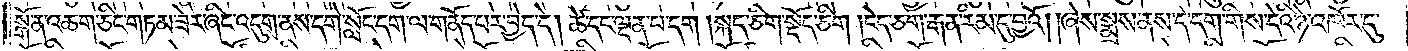སྒོ་ན་འཆག་ཅིང་གཏམ་ཟེར་ཞིང་འདུག་ནས་དགེ་སློང་དག་ལ་གནོད་པར་བྱེད་དེ། ཚེ་དང་ལྡན་པ་དག །སྐད་ཅིག་སྡོད་ཅིག །ངེད་ཅག་རྒན་རིམ་དུ་བྱའོ། །ཞེས་སྨྲས་ནས་དེ་དག་གིས་དེའི་ཉེ་འཁོར་དུ་
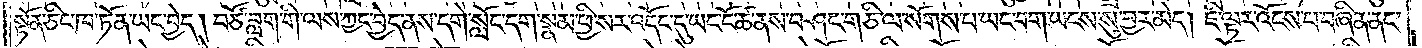སྟོན་ཅིང་ཁ་ཏོན་ཡང་བྱེད། བཙོ་བླག་གི་ལས་ཀྱང་བྱེད་ནས་དགེ་སློང་དག་སྣམ་ཕྱི་སར་འདོང་དུ་ཡང་ངོ་ཚ་ནས་བཤང་གཅི་ལ་སོགས་པ་ཡང་བག་ཡངས་སུ་བྱར་མེད། ཇི་ལྟར་འོངས་པ་བཞིན་ནང་
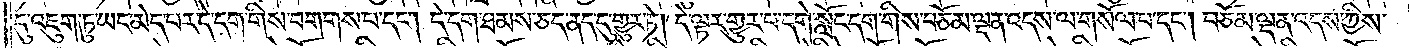དུ་འཇུག་ཏུ་ཡང་མེད་པར་དེ་དག་གིས་བགགས་པ་དང༌། དེ་དག་ཐམས་ཅད་ནད་དུ་གྱུར་ཏེ། དེ་ལྟར་གྱུར་པ་དགེ་སློང་དག་གིས་བཅོམ་ལྡན་འདས་ལ་གསོལ་པ་དང༌། བཅོམ་ལྡན་འདས་ཀྱིས་
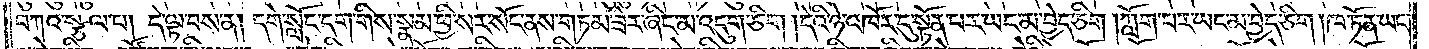བཀའ་སྩལ་པ། དེ་ལྟ་བས་ན། དགེ་སློང་དག་གིས་སྣམ་ཕྱི་སར་སོང་ནས་གཏམ་ཟེར་ཞིང་མ་འདུག་ཅིག །དེའི་ཉེ་འཁོར་དུ་སྟོན་པར་ཡང་མ་བྱེད་ཅིག །ཀློག་པར་ཡང་མ་བྱེད་ཅིག །ཁ་ཏོན་ཡང་
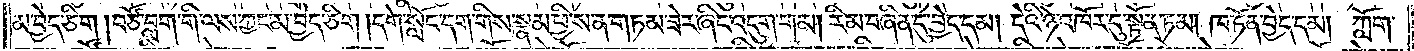མ་བྱེད་ཅིག །བཙོ་བླག་གི་ལས་ཀྱང་མ་བྱེད་ཅིག །དགེ་སློང་དག་གིས་སྣམ་ཕྱི་ས་ན་གཏམ་ཟེར་ཞིང་འདུག་གམ། རིམ་བཞིན་དུ་བྱེད་དམ། དེའི་ཉེ་འཁོར་དུ་སྟོན་ཏམ། ཁ་ཏོན་བྱེད་དམ། ཀློག་
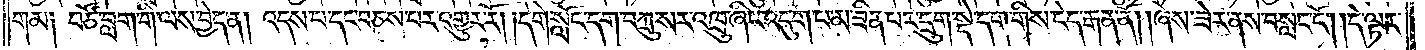གམ། བཙོ་བླག་གི་ལས་བྱེད་ན། འདས་པ་དང་བཅས་པར་འགྱུར་རོ། །དགེ་སློང་དག་བཀྲུ་སར་འཁྲུ་ཞིང་འདུག་པ་མ་ཟིན་པར་དྲུག་སྡེ་དག་གིས་ངེད་རྒན་ནོ། །ཞེས་ཟེར་ནས་བསླང་ངོ༌། །དེ་ལྟར་
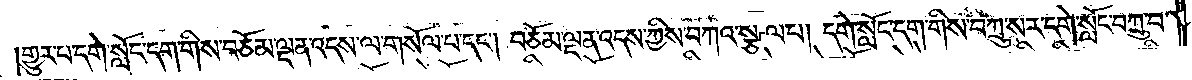གྱུར་པ་དགེ་སློང་དག་གིས་བཅོམ་ལྡན་འདས་ལ་གསོལ་པ་དང༌། བཅོམ་ལྡན་འདས་ཀྱིས་བཀའ་སྩལ་པ། དགེ་སློང་དག་གིས་བཀྲུ་སར་དགེ་སློང་བཀྲུ་བ་
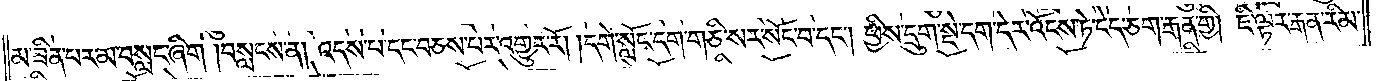མ་ཟིན་པར་མ་བསླང་ཞིག །བསླངས་ན། འདས་པ་དང་བཅས་པར་འགྱུར་རོ། །དགེ་སློང་དག་གཅི་སར་སོང་བ་དང༌། ཕྱིས་དྲུག་སྡེ་དག་དེར་འོངས་ཏེ་ངེད་ཅག་རྒན་གྱི། ཇི་ལྟར་རྒན་རིམ་
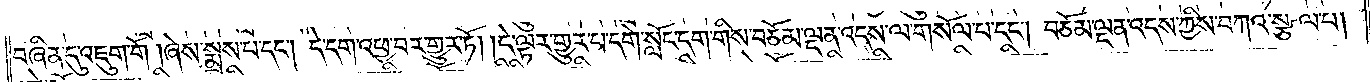བཞིན་དུ་འཇུག་གོ །ཞེས་སྨྲས་པ་དང༌། དེ་དག་འཕྱ་བར་གྱུར་ཏོ། །དེ་ལྟར་གྱུར་པ་དགེ་སློང་དག་གིས་བཅོམ་ལྡན་འདས་ལ་གསོལ་པ་དང༌། བཅོམ་ལྡན་འདས་ཀྱིས་བཀའ་སྩལ་པ།
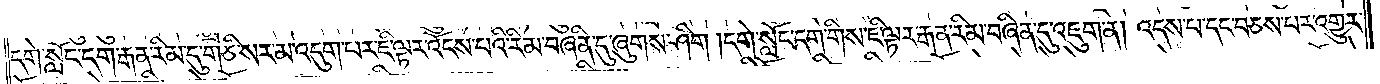དགེ་སློང་དག་རྒན་རིམ་དུ་གཅི་སར་མ་འདུག་པར་ཇི་ལྟར་འོངས་པའི་རིམ་བཞིན་དུ་ཞུགས་ཤིག །དགེ་སློང་དག་གིས་ཇི་ལྟར་རྒན་རིམ་བཞིན་དུ་འཇུག་ན། འདས་པ་དང་བཅས་པར་འགྱུར་
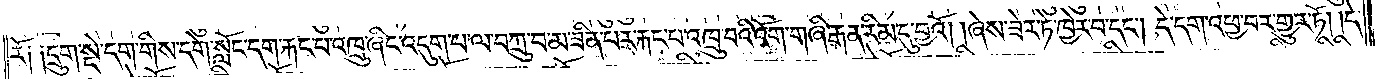རོ༑ ༑དྲུག་སྡེ་དག་གིས་དགེ་སློང་དག་རྐང་པ་འཁྲུ་ཞིང་འདུག་པ་ལ་བཀྲུ་བ་མ་ཟིན་པར་རྐང་པ་འཁྲུ་བའི་འོག་གཞི་རྒན་རིམ་དུ་བྱའོ། །ཞེས་ཟེར་ཏེ་ཁྱེར་བ་དང༌། དེ་དག་འཕྱ་བར་གྱུར་ཏོ། །དེ་
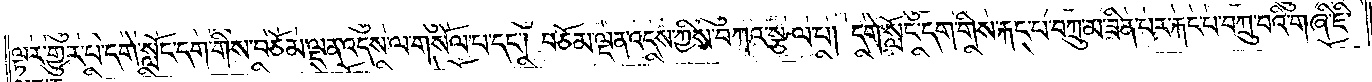ལྟར་གྱུར་པ་དགེ་སློང་དག་གིས་བཅོམ་ལྡན་འདས་ལ་གསོལ་པ་དང༌། བཅོམ་ལྡན་འདས་ཀྱིས་བཀའ་སྩལ་པ། དགེ་སློང་དག་གིས་རྐང་པ་བཀྲུ་མ་ཟིན་པར་རྐང་པ་བཀྲུ་བའི་གཞི་ཇི་
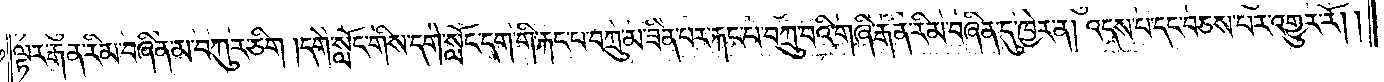ལྟར་རྒན་རིམ་བཞིན་མ་བཀུར་ཅིག །དགེ་སློང་གིས་དགེ་སློང་དག་གི་རྐང་པ་བཀྲུ་མ་ཟིན་པར་རྐང་པ་བཀྲུ་བའི་གཞི་རྒན་རིམ་བཞིན་དུ་ཁྱེར་ན། འདས་པ་དང་བཅས་པར་འགྱུར་རོ། །
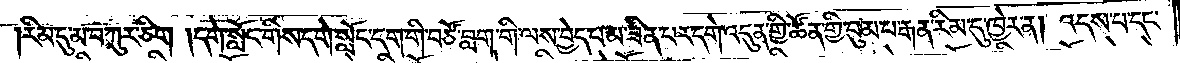རིམ་དུ་མ་བཀུར་ཅིག །དགེ་སློང་གིས་དགེ་སློང་དག་གི་བཙོ་བླག་གི་ལས་བྱེད་པ་མ་ཟིན་པར་དགེ་འདུན་གྱི་ཚོན་གྱི་བུམ་པ་རྒན་རིམ་དུ་ཁྱེར་ན། འདས་པ་དང་
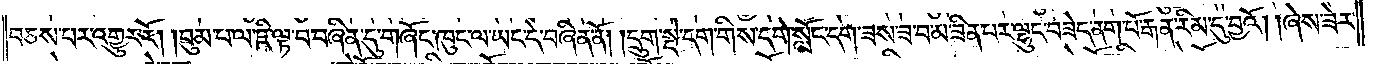བཅས་པར་འགྱུར་རོ། །བུམ་པ་ལ་ཇི་ལྟ་བ་བཞིན་དུ་གཞོང་ཁུང་ལ་ཡང་དེ་བཞིན་ནོ། །དྲུག་སྡེ་དག་གིས་དགེ་སློང་དག་ཟས་ཟ་བ་མ་ཟིན་པར་ལྷུང་བཟེད་ནག་པོ་རྒན་རིམ་དུ་བྱའོ། །ཞེས་ཟེར་
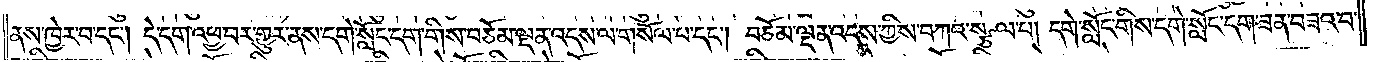ནས་ཁྱེར་བ་དང༌། དེ་དག་འཕྱ་བར་གྱུར་ནས་དགེ་སློང་དག་གིས་བཅོམ་ལྡན་འདས་ལ་གསོལ་པ་དང༌། བཅོམ་ལྡན་འདས་ཀྱིས་བཀའ་སྩལ་པ། དགེ་སློང་གིས་དགེ་སློང་དག་ཟན་བཟའ་བ་
